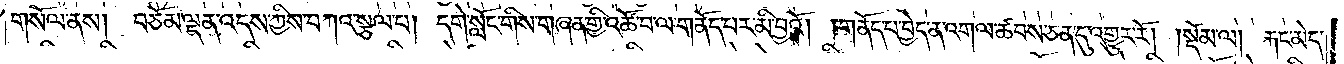གསོལ་ནས། བཅོམ་ལྡན་འདས་ཀྱིས་བཀའ་སྩལ་པ། དགེ་སློང་གིས་གཞན་གྱི་འཚོ་བ་ལ་གནོད་པར་མི་བྱའོ། །གནོད་པ་བྱེད་ན་འགལ་ཚབས་ཅན་དུ་འགྱུར་རོ། །སྡོམ་ལ། རྐང་མེད་
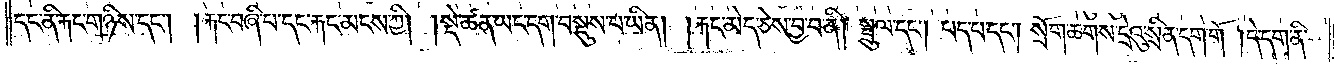དང་ནི་རྐང་གཉིས་དང༌། །རྐང་བཞི་པ་དང་རྐང་མངས་ཀྱི། །སྡེ་ཚན་ཡང་དག་བསྡུས་པ་ཡིན། །རྐང་མེད་ཅེས་བྱ་བ་ནི། སྦྲུལ་དང༌། པད་པ་དང༌། སྲོག་ཆགས་དྲེའུ་སྲིན་དག་གོ །དེ་དག་ནི་
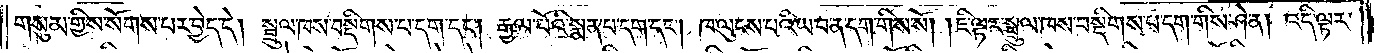གསུམ་གྱིས་སོགས་པར་བྱེད་དེ། སྦྲུལ་ཁས་བསྡིགས་པ་དག་དང༌། རྒྱལ་པོའི་སྨན་པ་དག་དང༌། ཁ་ལུངས་པའི་ཡབ་ན་དག་གིས་སོ། །ཇི་ལྟར་སྦྲུལ་ཁས་བསྡིགས་པ་དག་གིས་ཤེ་ན། འདི་ལྟར་
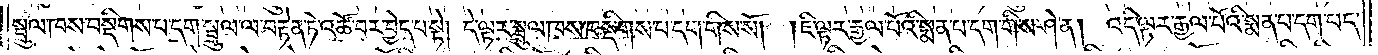སྦྲུལ་ཁས་བསྡིགས་པ་དག་སྦྲུལ་ལ་བརྟེན་ཏེ་འཚོ་བར་བྱེད་པ་སྟེ། དེ་ལྟར་སྦྲུལ་ཁས་བསྡིགས་པ་དག་གིས་སོ། །ཇི་ལྟར་རྒྱལ་པོའི་སྨན་པ་དག་གིས་ཤེ་ན། འདི་ལྟར་རྒྱལ་པོའི་སྨན་པ་དག་པད་
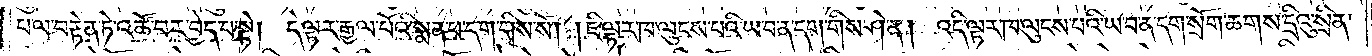པ་ལ་བརྟེན་ཏེ་འཚོ་བར་བྱེད་པ་སྟེ། དེ་ལྟར་རྒྱལ་པོའི་སྨན་པ་དག་གིས་སོ། །ཇི་ལྟར་ཁ་ལུངས་པའི་ཡ་བ་ན་དག་གིས་ཤེ་ན། འདི་ལྟར་ཁ་ལུངས་པའི་ཡ་བ་ན་དག་སྲོག་ཆགས་དྲིའུ་སྲིན་
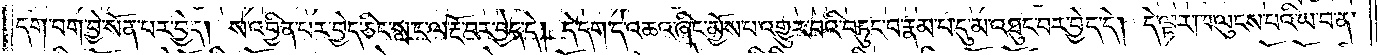དག་བག་བྱེ་སོན་པར་བྱེད། ས་འབྱིན་པར་བྱེད་ཅིང་སླ་ང་ལ་རྔོ་བར་བྱེད་དེ། དེ་དག་དེ་འཆའ་ཞིང་མྱོས་པ་འགྱུར་བའི་བཏུང་བ་རྣམ་པ་དུ་མ་འཐུང་བར་བྱེད་དེ། དེ་ལྟར་ཁ་ལུངས་པའི་ཡ་བ་ན་
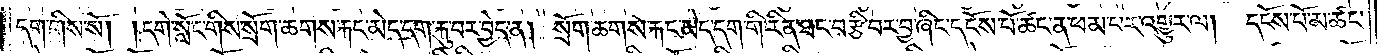དག་གིས་སོ། །དགེ་སློང་གིས་སྲོག་ཆགས་རྐང་མེད་དག་རྐུ་བར་བྱེད་ན།  སྲོག་ཆགས་རྐང་མེད་དག་གི་རིན་ཐང་བརྩི་བར་བྱ་ཞིང་དངོས་པོ་ཚང་ན་ཕམ་པར་འགྱུར་ལ། དངོས་པོ་མ་ཚང་
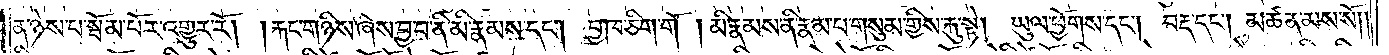ན་ཉེས་པ་སྦོམ་པོར་འགྱུར་རོ། །རྐང་གཉིས་ཞེས་བྱ་བ་ནི་མི་རྣམས་དང༌། བྱ་ཁ་ཅིག་གོ །མི་རྣམས་ནི་རྣམ་པ་གསུམ་གྱིས་རྐུ་སྟེ། ཡུལ་ཕྱོགས་དང༌། བརྡ་དང༌། མཚན་མས་སོ། །
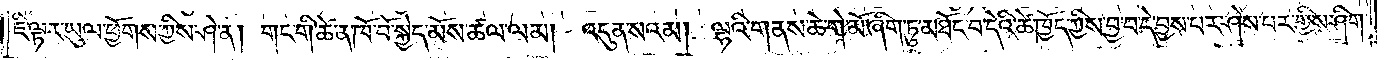ཇི་ལྟར་ཡུལ་ཕྱོགས་ཀྱིས་ཤེ་ན། གང་གི་ཚེ་ན་ཁོ་བོ་སྐྱེད་མོས་ཚལ་ལམ། འདུན་སའམ། ལྷའི་གནས་ཆེ་གེ་མོ་ཞིག་ཏུ་མཐོང་བ་དེའི་ཚེ་ཁྱོད་ཀྱིས་བྱ་བ་དེ་བྱས་པར་ཤེས་པར་གྱིས་ཤིག་
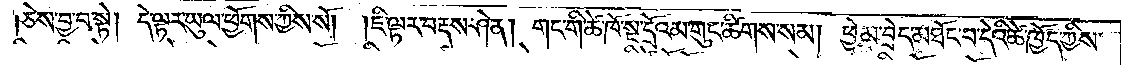ཅེས་བྱ་བ་སྟེ། དེ་ལྟར་ཡུལ་ཕྱོགས་ཀྱིས་སོ།  །ཇི་ལྟར་བརྡས་ཤེ་ན། གང་གི་ཚེ་ཁོ་སྔ་དྲོའམ་གུང་ཚིགས་སམ། ཕྱེ་མ་བྲེད་མཐོང་བ་དེའི་ཚེ་ཁྱོད་ཀྱིས་
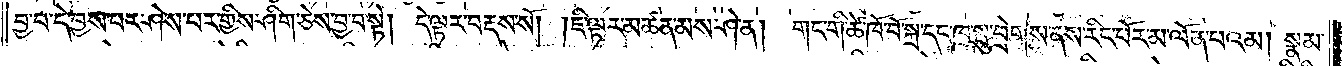བྱ་བ་དེ་བྱས་པར་ཤེས་པར་གྱིས་ཤིག་ཅེས་བྱ་བ་སྟེ། དེ་ལྟར་བརྡས་སོ། །ཇི་ལྟར་མཚན་མས་ཤེ་ན། གང་གི་ཚེ་ཁོ་བོ་སྐྲ་དང་ཁ་སྤུ་བྲེགས་ནས་རིང་པོར་མ་ལོན་པའམ། སྣམ་
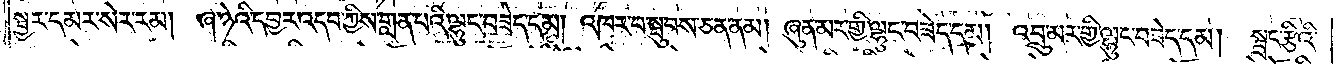སྦྱར་དམར་སེར་རམ། ཞ་ཉེའི་དབྱར་འདབ་ཀྱིས་གླན་པའི་ལྷུང་བཟེད་དམ། འཁར་བ་སྦུབས་ཅན་ནམ། ཞུན་མར་གྱི་ལྷུང་བཟེད་དམ། འབྲུ་མར་གྱི་ལྷུང་བཟེད་དམ། སྦྲང་རྩིའི་
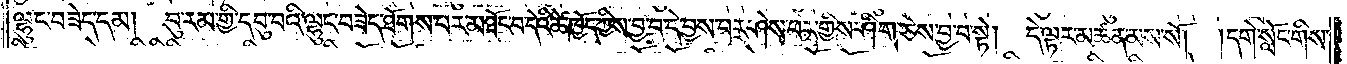ལྷུང་བཟེད་དམ། བུ་རམ་གྱི་དབུ་བའི་ལྷུང་བཟེད་ཐོགས་པར་མཐོང་བ་དེའི་ཚེ་ཁྱོད་ཀྱིས་བྱ་བ་དེ་བྱས་པར་ཤེས་པར་གྱིས་ཤིག་ཅེས་བྱ་བ་སྟེ། དེ་ལྟར་མཚན་མས་སོ།  །དགེ་སློང་གིས་
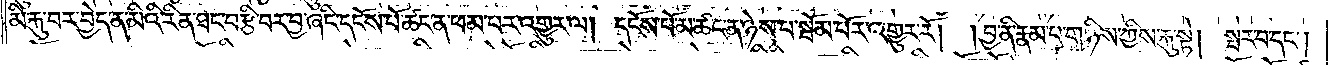མི་རྐུ་བར་བྱེད་ན་མིའི་རིན་ཐང་བརྩི་བར་བྱ་ཞིང་དངོས་པོ་ཚང་ན་ཕམ་པར་འགྱུར་ལ། དངོས་པོ་མ་ཚང་ན་ཉེས་པ་སྦོམ་པོར་འགྱུར་རོ། །བྱ་ནི་རྣམ་པ་གཉིས་ཀྱིས་རྐུ་སྟེ། སྤར་བ་དང༌།
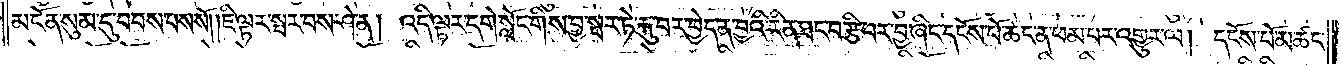མངོན་སུམ་དུ་བབས་པས་སོ། །ཇི་ལྟར་སྤར་བས་ཤེ་ན། འདི་ལྟར་དགེ་སློང་གིས་བྱ་སྤར་ཏེ་རྐུ་བར་བྱེད་ན་བྱའི་རིན་ཐང་བརྩི་བར་བྱ་ཞིང་དངོས་པོ་ཚང་ན་ཕམ་པར་འགྱུར་ལ། དངོས་པོ་མ་ཚང་
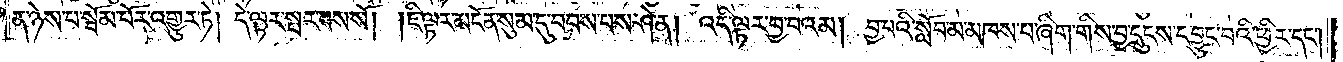ན་ཉེས་པ་སྦོམ་པོར་འགྱུར་ཏེ། དེ་ལྟར་སྤར་བས་སོ། །ཇི་ལྟར་མངོན་སུམ་དུ་བབས་པས་ཤེ་ན། འདི་ལྟར་བྱ་བའམ། བྱ་བའི་སློབ་མ་མཁས་པ་ཞིག་གིས་བྱ་དྲུངས་དབྱུང་བའི་ཕྱིར་དང༌།
